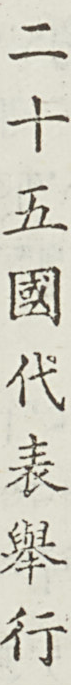二 十 五 國 代 表 舉 行
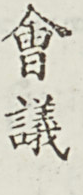會議
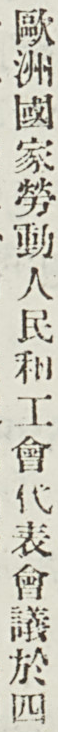歐洲國家勞動人民和工會代表會議於四
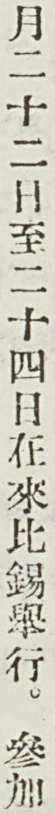月二十二日至二十四日在來比錫舉行。參加
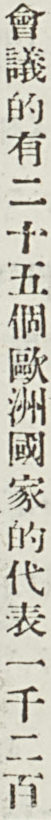會議的有二十五個歐洲國家的代表一千二百
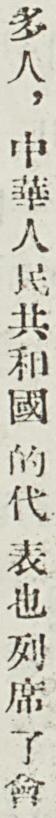多人，中華人民共和國的代表也列席了會
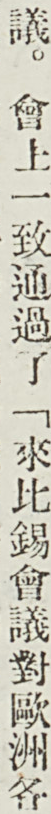議。會上一致通過了「來比錫會議對歐洲各
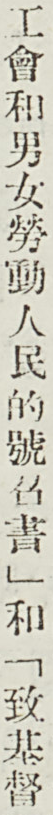工會和男女勞動人民的號召書」和「致基督
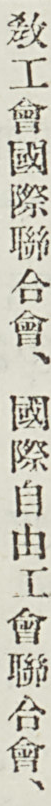敎工會國際聯合會、國際自由工會聯合會、
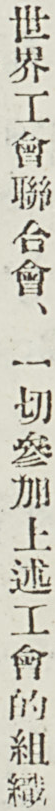世界工會聯合會、一切參加上述工會的組織
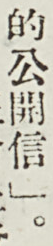的公開信」。
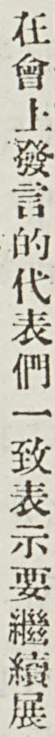在會上發言的代表們一致表示要繼續展
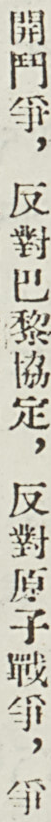開鬥爭，反對巴黎協定，反對原子戰爭，爭
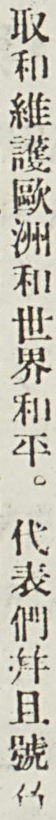取和維護歐洲和世界和平。代表們並且號召
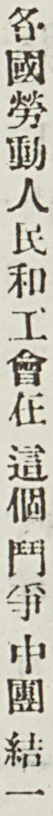各國勞動人民和工會在這個鬥爭中團結一
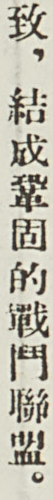致，結成鞏固的戰鬥聯盟。
